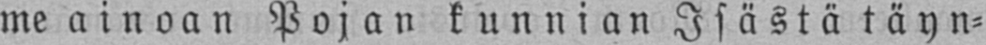me ainoan Pojan kunnian Isästä täyn-
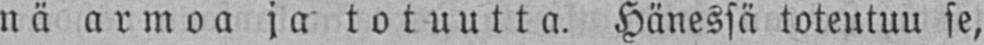nä armoa ja totuutta. Hänessä toteutuu se,
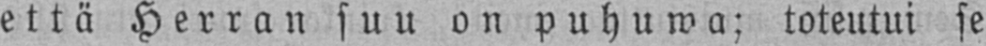että Herran suu on puhuwa; toteutui se
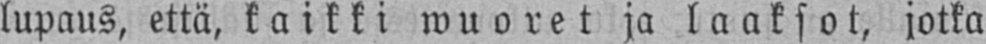lupaus, että, kaikki wuoret ja laaksot, jotka
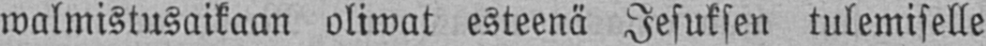walmistusaikaan oliwat esteenä Jesuksen tulemiselle
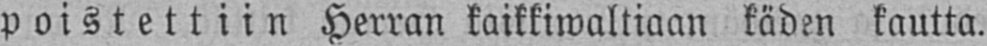poistettiin Herran kaikkiwaltiaan käden kautta.
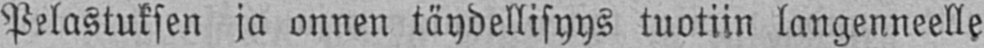Pelastuksen ja onnen täydellisyys tuotiin langenneelle
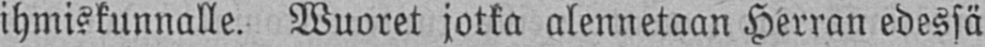ihmiskunnalle. Wuoret jotka alennetaan Herran edessä
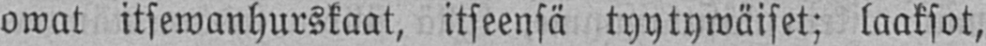owat itsewanhurskaat, itseensä tyytywäiset; laaksot,
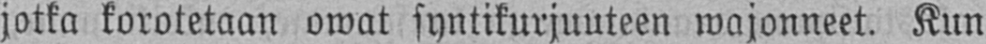jotka korotetaan owat syntikurjuuteen wajonneet. Kun
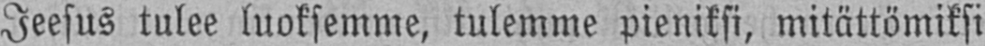Jeesus tulee luoksemme, tulemme pieniksi, mitättömiksi
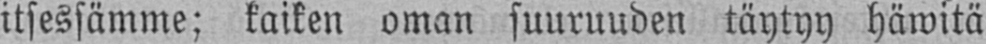itsessämme; kaiken oman suuruuden täytyy häwitä
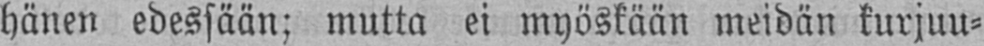hänen edessään; mutta ei myöskään meidän kurjuu-
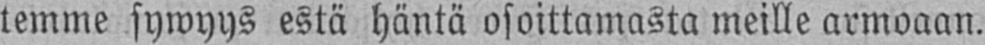temme sywyys estä häntä osoittamasta meille armoaan.
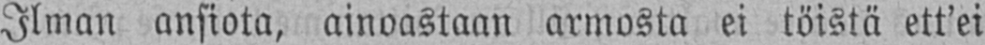Ilman ansiota, ainoastaan armosta ei töistä ett'ei
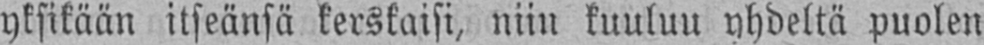yksikään itseänsä kerskaisi, niin kuuluu yhdeltä puolen
